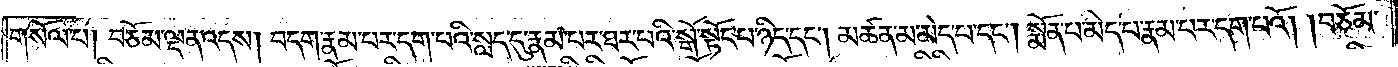གསོལ་པ། བཅོམ་ལྡན་འདས། བདག་རྣམ་པར་དག་པའི་སླད་དུ་རྣམ་པར་ཐར་པའི་སྒོ་སྟོང་པ་ཉིད་དང༌། མཚན་མ་མེད་པ་དང༌། སྨོན་པ་མེད་པ་རྣམ་པར་དག་པའོ། །བཅོམ་
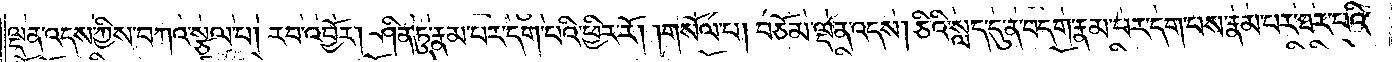ལྡན་འདས་ཀྱིས་བཀའ་སྩལ་པ། རབ་འབྱོར། ཤིན་ཏུ་རྣམ་པར་དག་པའི་ཕྱིར་རོ། །གསོལ་པ། བཅོམ་ལྡན་འདས། ཅིའི་སླད་དུ་ན་བདག་རྣམ་པར་དག་པས་རྣམ་པར་ཐར་པའི་
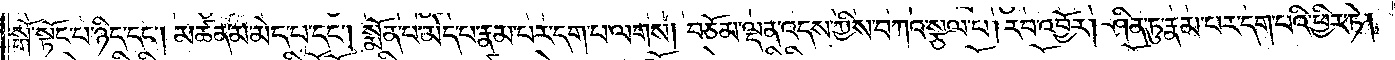སྒོ་སྟོང་པ་ཉིད་དང༌། མཚན་མ་མེད་པ་དང༌། སྨོན་པ་མེད་པ་རྣམ་པར་དག་པ་ལགས། བཅོམ་ལྡན་འདས་ཀྱིས་བཀའ་སྩལ་པ། རབ་འབྱོར། ཤིན་ཏུ་རྣམ་པར་དག་པའི་ཕྱིར་ཏེ།
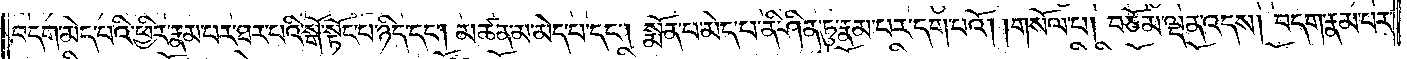བདག་མེད་པའི་ཕྱིར་རྣམ་པར་ཐར་པའི་སྒོ་སྟོང་པ་ཉིད་དང༌། མཚན་མ་མེད་པ་དང༌། སྨོན་པ་མེད་པ་ནི་ཤིན་ཏུ་རྣམ་པར་དག་པའོ། །གསོལ་པ། བཅོམ་ལྡན་འདས། བདག་རྣམ་པར་
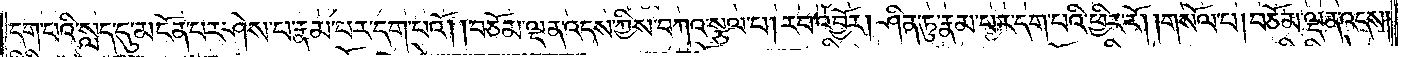དག་པའི་སླད་དུ་མངོན་པར་ཤེས་པ་རྣམ་པར་དག་པའོ། །བཅོམ་ལྡན་འདས་ཀྱིས་བཀའ་སྩལ་པ། རབ་འབྱོར། ཤིན་ཏུ་རྣམ་པར་དག་པའི་ཕྱིར་རོ། །གསོལ་པ། བཅོམ་ལྡན་འདས།
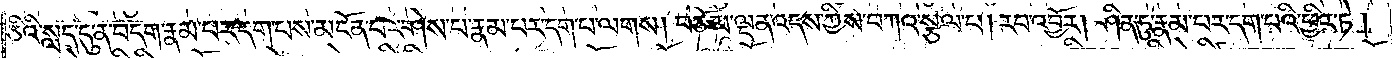ཅིའི་སླད་དུ་ན་བདག་རྣམ་པར་དག་པས་མངོན་པར་ཤེས་པ་རྣམ་པར་དག་པ་ལགས། བཅོམ་ལྡན་འདས་ཀྱིས་བཀའ་སྩལ་པ། རབ་འབྱོར། ཤིན་ཏུ་རྣམ་པར་དག་པའི་ཕྱིར་ཏེ།
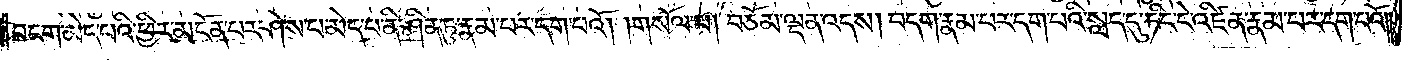བདག་མེད་པའི་ཕྱིར་མངོན་པར་ཤེས་པ་མེད་པ་ནི་ཤིན་ཏུ་རྣམ་པར་དག་པའོ། །གསོལ་པ། བཅོམ་ལྡན་འདས། བདག་རྣམ་པར་དག་པའི་སླད་དུ་ཏིང་ངེ་འཛིན་རྣམ་པར་དག་པའོ། །
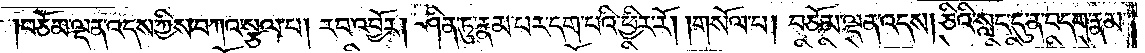བཅོམ་ལྡན་འདས་ཀྱིས་བཀའ་སྩལ་པ། རབ་འབྱོར། ཤིན་ཏུ་རྣམ་པར་དག་པའི་ཕྱིར་རོ། །གསོལ་པ། བཅོམ་ལྡན་འདས། ཅིའི་སླད་དུ་ན་བདག་རྣམ་
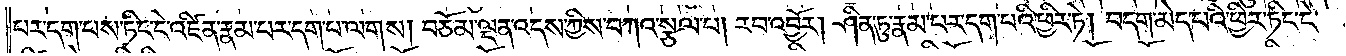པར་དག་པས་ཏིང་ངེ་འཛིན་རྣམ་པར་དག་པ་ལགས། བཅོམ་ལྡན་འདས་ཀྱིས་བཀའ་སྩལ་པ། རབ་འབྱོར། ཤིན་ཏུ་རྣམ་པར་དག་པའི་ཕྱིར་ཏེ། བདག་མེད་པའི་ཕྱིར་ཏིང་ངེ་
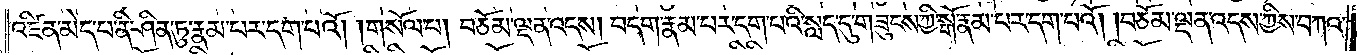འཛིན་མེད་པ་ནི་ཤིན་ཏུ་རྣམ་པར་དག་པའོ། །གསོལ་པ། བཅོམ་ལྡན་འདས། བདག་རྣམ་པར་དག་པའི་སླད་དུ་གཟུངས་ཀྱི་སྒོ་རྣམ་པར་དག་པའོ། །བཅོམ་ལྡན་འདས་ཀྱིས་བཀའ་
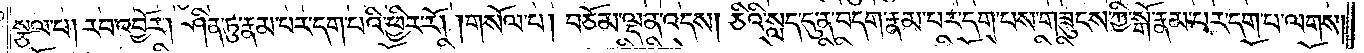སྩལ་པ། རབ་འབྱོར། ཤིན་ཏུ་རྣམ་པར་དག་པའི་ཕྱིར་རོ། །གསོལ་པ། བཅོམ་ལྡན་འདས། ཅིའི་སླད་དུ་ན་བདག་རྣམ་པར་དག་པས་གཟུངས་ཀྱི་སྒོ་རྣམ་པར་དག་པ་ལགས།
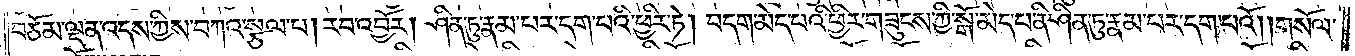བཅོམ་ལྡན་འདས་ཀྱིས་བཀའ་སྩལ་པ། རབ་འབྱོར། ཤིན་ཏུ་རྣམ་པར་དག་པའི་ཕྱིར་ཏེ། བདག་མེད་པའི་ཕྱིར་གཟུངས་ཀྱི་སྒོ་མེད་པ་ནི་ཤིན་ཏུ་རྣམ་པར་དག་པའོ། །གསོལ་
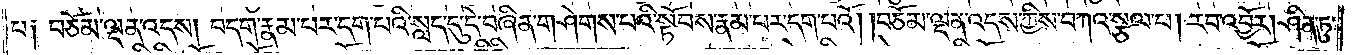པ༑ བཅོམ་ལྡན་འདས། བདག་རྣམ་པར་དག་པའི་སླད་དུ་དེ་བཞིན་གཤེགས་པའི་སྟོབས་རྣམ་པར་དག་པའོ། །བཅོམ་ལྡན་འདས་ཀྱིས་བཀའ་སྩལ་པ། རབ་འབྱོར། ཤིན་ཏུ་
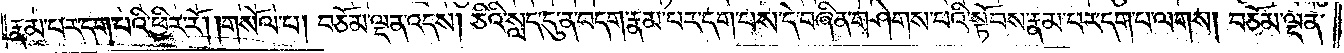རྣམ་པར་དག་པའི་ཕྱིར་རོ། །གསོལ་པ། བཅོམ་ལྡན་འདས། ཅིའི་སླད་དུ་ན་བདག་རྣམ་པར་དག་པས་དེ་བཞིན་གཤེགས་པའི་སྟོབས་རྣམ་པར་དག་པ་ལགས། བཅོམ་ལྡན་
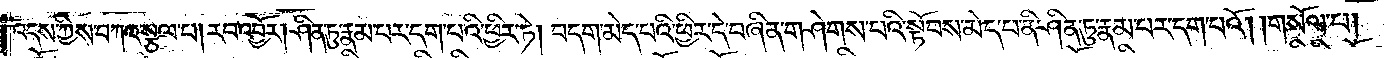འདས་ཀྱིས་བཀའ་སྩལ་པ། རབ་འབྱོར། ཤིན་ཏུ་རྣམ་པར་དག་པའི་ཕྱིར་ཏེ། བདག་མེད་པའི་ཕྱིར་དེ་བཞིན་གཤེགས་པའི་སྟོབས་མེད་པ་ནི་ཤིན་ཏུ་རྣམ་པར་དག་པའོ། །གསོལ་པ།
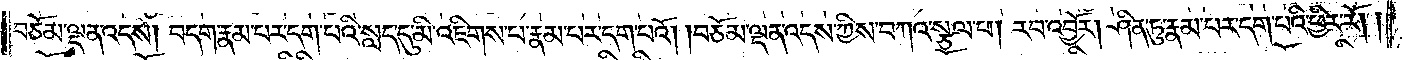བཅོམ་ལྡན་འདས། བདག་རྣམ་པར་དག་པའི་སླད་དུ་མི་འཇིགས་པ་རྣམ་པར་དག་པའོ། །བཅོམ་ལྡན་འདས་ཀྱིས་བཀའ་སྩལ་པ། རབ་འབྱོར། ཤིན་ཏུ་རྣམ་པར་དག་པའི་ཕྱིར་རོ། །
